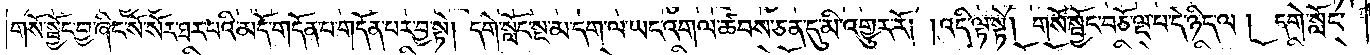གསོ་སྦྱོང་བྱ་ཞིང་སོ་སོར་ཐར་པའི་མདོ་གདོན་པ་གདོན་པར་བྱ་སྟེ། དགེ་སློང་སྔ་མ་དག་ལ་ཡང་འགལ་ཚབས་ཅན་དུ་མི་འགྱུར་རོ། །འདི་ལྟ་སྟེ། གསོ་སྦྱོང་བཅོ་ལྔ་པ་དེ་ཉིད་ལ། དགེ་སློང་
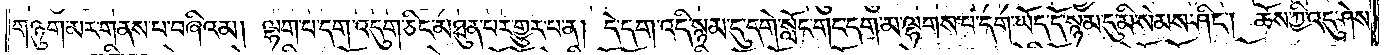གཉུག་མར་གནས་པ་བཞིའམ། ལྷག་པ་དག་འདུག་ཅིང་མཐུན་པར་གྱུར་པ་ན། དེ་དག་འདི་སྙམ་དུ་དགེ་སློང་གང་དག་མ་ལྷགས་པ་དག་ཡོད་དོ་སྙམ་དུ་མི་སེམས་ཤིང༌། ཆོས་ཀྱི་འདུ་ཤེས་
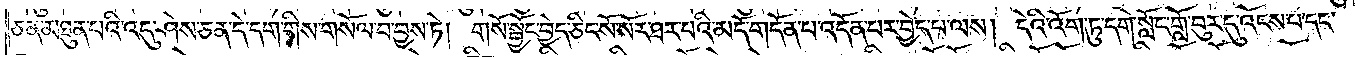ཅན་མཐུན་པའི་འདུ་ཤེས་ཅན་དེ་དག་གིས་གསོལ་བ་བྱས་ཏེ། གསོ་སྦྱོང་བྱེད་ཅིང་སོ་སོར་ཐར་པའི་མདོ་གདོན་པ་འདོན་པར་བྱེད་པ་ལས། དེའི་འོག་ཏུ་དགེ་སློང་གློ་བུར་དུ་འོངས་པ་དང་
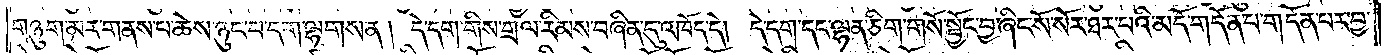གཉུག་མར་གནས་པ་ཆེས་ཉུང་བ་དག་ལྷགས་ན། དེ་དག་གིས་གྲལ་རིམས་བཞིན་དུ་འཁོར་དེ། དེ་དག་དང་ལྷན་ཅིག་གསོ་སྦྱོང་བྱ་ཞིང་སོ་སོར་ཐར་པའི་མདོ་གདོན་པ་གདོན་པར་བྱ་
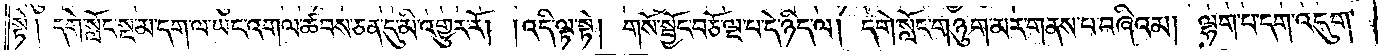སྟེ། དགེ་སློང་སྔ་མ་དག་ལ་ཡང་འགལ་ཚབས་ཅན་དུ་མི་འགྱུར་རོ། །འདི་ལྟ་སྟེ། གསོ་སྦྱོང་བཅོ་ལྔ་པ་དེ་ཉིད་ལ། དགེ་སློང་གཉུག་མར་གནས་པ་བཞིའམ། ལྷག་པ་དག་འདུག་
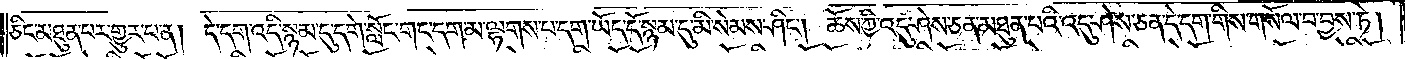ཅིང་མཐུན་པར་གྱུར་པ་ན། དེ་དག་འདི་སྙམ་དུ་དགེ་སློང་གང་དག་མ་ལྷགས་པ་དག་ཡོད་དོ་སྙམ་དུ་མི་སེམས་ཤིང༌། ཆོས་ཀྱི་འདུ་ཤེས་ཅན་མཐུན་པའི་འདུ་ཤེས་ཅན་དེ་དག་གིས་གསོལ་བ་བྱས་ཏེ།
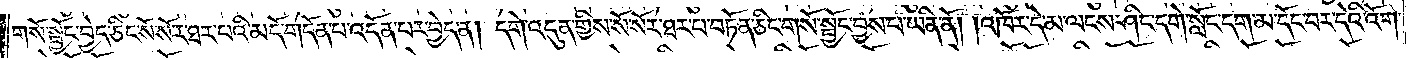གསོ་སྦྱོང་བྱེད་ཅིང་སོ་སོར་ཐར་པའི་མདོ་གདོན་པ་འདོན་པར་བྱེད་ན། དགེ་འདུན་གྱིས་སོ་སོར་ཐར་པ་བཏོན་ཅིང་གསོ་སྦྱོང་བྱས་པ་ཡིན་ནོ། །འཁོར་དེ་མ་ལངས་ཤིང་དགེ་སློང་དག་མ་དོང་བར་དེའི་འོག་
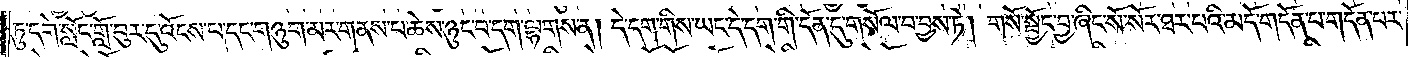ཏུ་དགེ་སློང་གློ་བུར་དུ་འོངས་པ་དང་གཉུག་མར་གནས་པ་ཆེས་ཉུང་བ་དག་ལྷགས་ན། དེ་དག་གིས་ཡང་དེ་དག་གི་དོན་དུ་གསོལ་བ་བྱས་ཏེ། གསོ་སྦྱོང་བྱ་ཞིང་སོ་སོར་ཐར་པའི་མདོ་གདོན་པ་གདོན་པར་
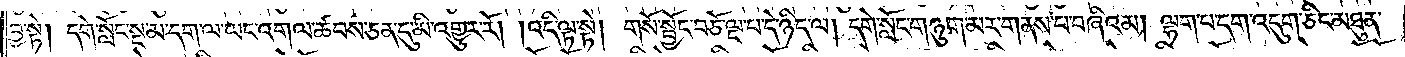བྱ་སྟེ། དགེ་སློང་སྔ་མ་དག་ལ་ཡང་འགལ་ཚབས་ཅན་དུ་མི་འགྱུར་རོ། །འདི་ལྟ་སྟེ། གསོ་སྦྱོང་བཅོ་ལྔ་པ་དེ་ཉིད་ལ། དགེ་སློང་གཉུག་མར་གནས་པ་བཞིའམ། ལྷག་པ་དག་འདུག་ཅིང་མཐུན་
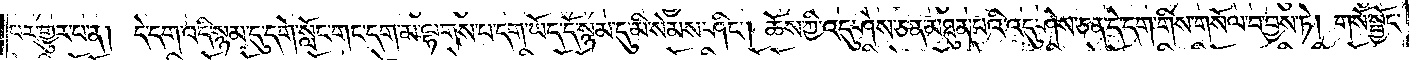པར་གྱུར་པ་ན། དེ་དག་འདི་སྙམ་དུ་དགེ་སློང་གང་དག་མ་ལྷགས་པ་དག་ཡོད་དོ་སྙམ་དུ་མི་སེམས་ཤིང༌། ཆོས་ཀྱི་འདུ་ཤེས་ཅན་མཐུན་པའི་འདུ་ཤེས་ཅན་དེ་དག་གིས་གསོལ་བ་བྱས་ཏེ། གསོ་སྦྱོང་
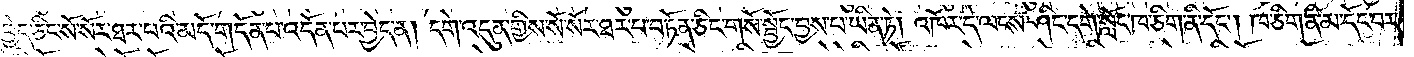བྱེད་ཅིང་སོ་སོར་ཐར་པའི་མདོ་གདོན་པ་འདོན་པར་བྱེད་ན། དགེ་འདུན་གྱིས་སོ་སོར་ཐར་པ་བཏོན་ཅིང་གསོ་སྦྱོང་བྱས་པ་ཡིན་ཏེ། འཁོར་དེ་ལངས་ཤིང་དགེ་སློང་ཁ་ཅིག་ནི་དོང༌། ཁ་ཅིག་ནི་མ་དོང་བར་
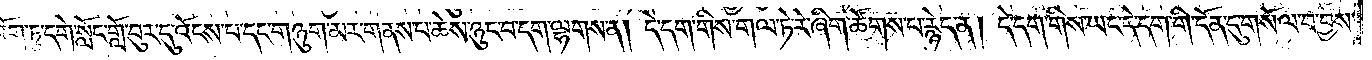དེའི་འོག་ཏུ་དགེ་སློང་གློ་བུར་དུ་འོངས་པ་དང་གཉུག་མར་གནས་པ་ཆེས་ཉུང་བ་དག་ལྷགས་ན། དེ་དག་གིས་གལ་ཏེ་རེ་ཞིག་ཚོགས་པ་རྙེད་ན། དེ་དག་གིས་ཡང་དེ་དག་གི་དོན་དུ་གསོལ་བ་བྱས་
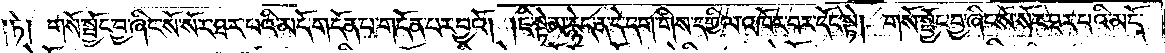ཏེ། གསོ་སྦྱོང་བྱ་ཞིང་སོ་སོར་ཐར་པའི་མདོ་གདོན་པ་གདོན་པར་བྱའོ། །ཇི་སྟེ་མ་རྙེད་ན་དེ་དག་གིས་དཀྱིལ་འཁོར་བར་དོང་སྟེ། གསོ་སྦྱོང་བྱ་ཞིང་སོ་སོར་ཐར་པའི་མདོ་
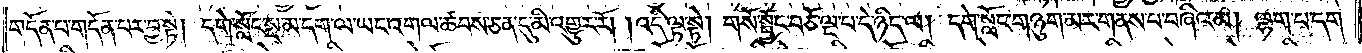གདོན་པ་གདོན་པར་བྱ་སྟེ། དགེ་སློང་སྔ་མ་དག་ལ་ཡང་འགལ་ཚབས་ཅན་དུ་མི་འགྱུར་རོ། །འདི་ལྟ་སྟེ། གསོ་སྦྱོང་བཅོ་ལྔ་པ་དེ་ཉིད་ལ། དགེ་སློང་གཉུག་མར་གནས་པ་བཞིའམ། ལྷག་པ་དག་
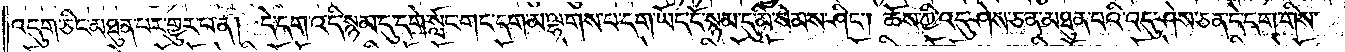འདུག་ཅིང་མཐུན་པར་གྱུར་པ་ན། དེ་དག་འདི་སྙམ་དུ་དགེ་སློང་གང་དག་མ་ལྷགས་པ་དག་ཡོད་དོ་སྙམ་དུ་མི་སེམས་ཤིང༌། ཆོས་ཀྱི་འདུ་ཤེས་ཅན་མཐུན་པའི་འདུ་ཤེས་ཅན་དེ་དག་གིས་
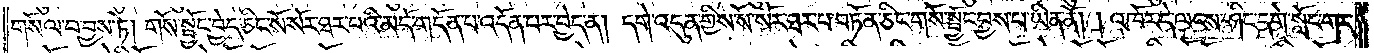གསོལ་བ་བྱས་ཏེ། གསོ་སྦྱོང་བྱེད་ཅིང་སོ་སོར་ཐར་པའི་མདོ་གདོན་པ་འདོན་པར་བྱེད་ན། དགེ་འདུན་གྱིས་སོ་སོར་ཐར་པ་བཏོན་ཅིང་གསོ་སྦྱོང་བྱས་པ་ཡིན་ནོ། །འཁོར་དེ་ལངས་ཤིང་དགེ་སློང་གང་
